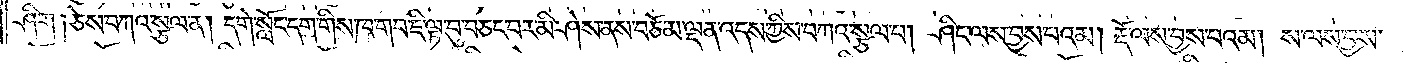ཤིག །ཅེས་བཀའ་སྩལ་ན། དགེ་སློང་དག་གིས་ཁ་གབ་ཇི་ལྟ་བུ་བཅང་བར་མི་ཤེས་ནས་བཅོམ་ལྡན་འདས་ཀྱིས་བཀའ་སྩལ་པ། ཤིང་ལས་བྱས་པའམ། རྡོ་ལས་བྱས་པའམ། ས་ལས་བྱས་
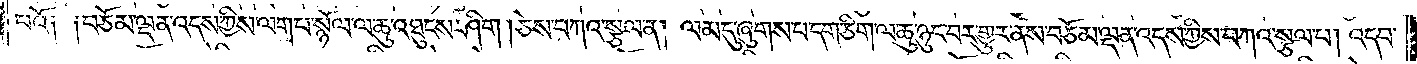པའོ༑ ༑བཅོམ་ལྡན་འདས་ཀྱིས་ལག་པ་སྙོལ་ལ་ཆུ་འཐུངས་ཤིག །ཅེས་བཀའ་སྩལ་ན། ལམ་དུ་ཞུགས་པ་དག་ཅིག་ལ་ཆུ་ཉུང་བར་གྱུར་ནས་བཅོམ་ལྡན་འདས་ཀྱིས་བཀའ་སྩལ་པ། འདབ་
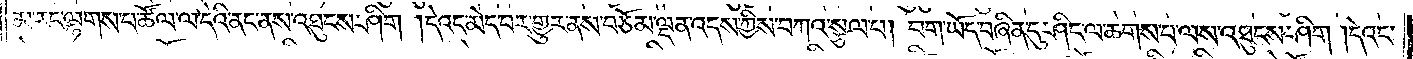མ་རང་ལྷགས་པ་ཚོལ་ལ་དེའི་ནང་ནས་འཐུངས་ཤིག །དེའང་མེད་པར་གྱུར་ནས་བཅོམ་ལྡན་འདས་ཀྱིས་བཀའ་སྩལ་པ། བག་ཡོད་བཞིན་དུ་ཤིང་ལ་ཆགས་པ་ལས་འཐུངས་ཤིག །དེའང་
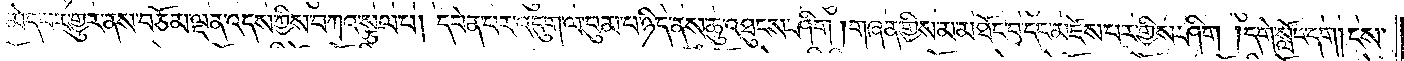མེད་པར་གྱུར་ནས་བཅོམ་ལྡན་འདས་ཀྱིས་བཀའ་སྩལ་པ། དབེན་པར་འདུག་ལ་བུམ་པ་ཉིད་ནས་ཆུ་འཐུངས་ཤིག །གཞན་གྱིས་མ་མཐོང་བ་དང་མཛེས་པར་གྱིས་ཤིག །དགེ་སློང་དག །ངས་
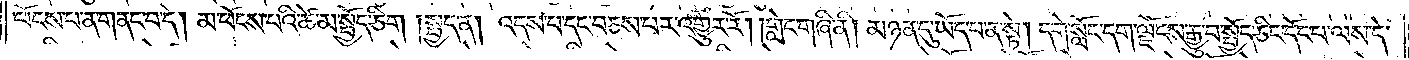ཕོངས་པ་ན་གནང་བ་དེ། མ་ཕོངས་པའི་ཚེ་མ་སྤྱོད་ཅིག །སྤྱད་ན། འདས་པ་དང་བཅས་པར་འགྱུར་རོ། །གླེང་གཞི་ནི། མཉན་དུ་ཡོད་པ་ན་སྟེ། དགེ་སློང་དག་ལྗོངས་རྒྱུ་བ་སྤྱོད་ཅིང་དོང་པ་ལས་དེ་
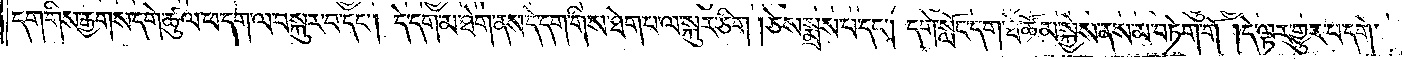དག་གིས་རྒྱགས་དགེ་ཚུལ་ཕ་དག་ལ་བསྐུར་བ་དང༌། དེ་དག་མ་ཐེག་ནས་དེ་དག་གིས་ཐེག་པ་ལ་སྐུར་ཅིག །ཅེས་སྨྲས་པ་དང༌། དགེ་སློང་དག་ཐེ་ཚོམ་སྐྱེས་ནས་མ་བཏེག་གོ །དེ་ལྟར་གྱུར་པ་དགེ་
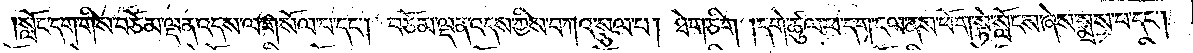སློང་དག་གིས་བཅོམ་ལྡན་འདས་ལ་གསོལ་པ་དང༌། བཅོམ་ལྡན་འདས་ཀྱིས་བཀའ་སྩལ་པ། ཐེ་གཅིག །དགེ་ཚུལ་ཕ་དག་ངལ་ནས་ཕོག་སྟེ་སློངས་ཞེས་སྨྲས་པ་དང༌།
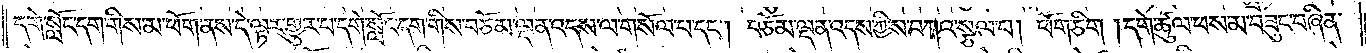དགེ་སློང་དག་གིས་མ་ཕོག་ནས་དེ་ལྟར་གྱུར་པ་དགེ་སློང་དག་གིས་བཅོམ་ལྡན་འདས་ལ་གསོལ་པ་དང༌། བཅོམ་ལྡན་འདས་ཀྱིས་བཀའ་སྩལ་པ། ཕོ་གཅིག །དགེ་ཚུལ་ཕས་མ་བཟུང་བཞིན་
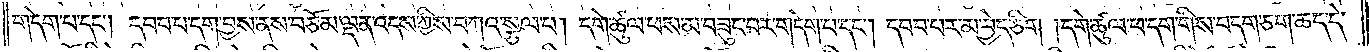གདེག་པ་དང༌། དབབ་པ་དག་བྱས་ནས་བཅོམ་ལྡན་འདས་ཀྱིས་བཀའ་སྩལ་པ། དགེ་ཚུལ་ཕས་མ་བཟུང་བར་གདེག་པ་དང༌། དབབ་པར་མ་བྱེད་ཅིག །དགེ་ཚུལ་ཕ་དག་གིས་བདག་ཅག་ཆད་དེ་
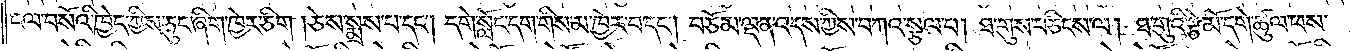ངལ་བསོའི་ཁྱེད་ཀྱིས་ཅུང་ཞིག་ཁྱེར་ཅིག །ཅེས་སྨྲས་པ་དང༌། དགེ་སློང་དག་གིས་མ་ཁྱེར་བ་དང༌། བཅོམ་ལྡན་འདས་ཀྱིས་བཀའ་སྩལ་པ། ཐ་གུས་བཅིངས་ལ། ཐ་གུའི་རྩེ་མོ་དགེ་ཚུལ་ཕས་
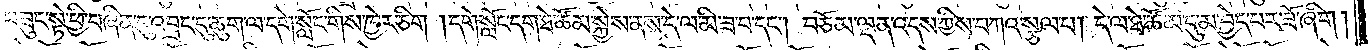བཟུང་སྟེ་ཕྱི་བཞིན་དུ་འབྲང་དུ་ཆུག་ལ་དགེ་སློང་གིས་ཁྱེར་ཅིག །དགེ་སློང་དག་ཐེ་ཚོམ་སྐྱེས་ནས་དེ་ལ་མི་ཟ་བ་དང༌། བཅོམ་ལྡན་འདས་ཀྱིས་བཀའ་སྩལ་པ། དེ་ལ་ཐེ་ཚོམ་དུ་མ་བྱེད་པར་ཟོ་ཞིག།
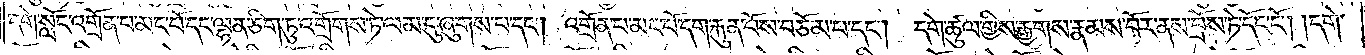དགེ་སློང་འགྲོན་པ་མང་པོ་དང་ལྷན་ཅིག་ཏུ་འགྲོགས་ཏེ་ལམ་དུ་ཞུགས་པ་དང༌། འགྲོན་པ་མང་པོ་དག་རྐུན་པོས་བཅོམ་པ་དང༌། དགེ་ཚུལ་གྱིས་རྒྱགས་རྣམས་བོར་ནས་བྲོས་ཏེ་དོང་ངོ༌། །དགེ་
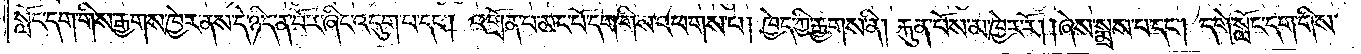སློང་དག་གིས་རྒྱགས་ཁྱེར་ནས་དེ་ཉིད་ན་བོར་ཞིང་འདུག་པ་དང༌། འགྲོན་པ་མང་པོ་དག་གིས་འཕགས་པ། ཁྱེད་ཀྱི་རྒྱགས་ནི། རྐུན་པོས་མ་ཁྱེར་རོ། །ཞེས་སྨྲས་པ་དང༌། དགེ་སློང་དག་གིས་
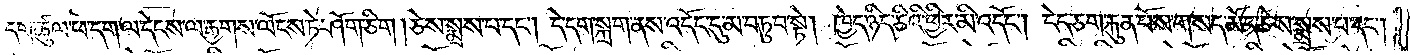དགེ་ཚུལ་ཕ་དག་ལ་དེངས་ལ་རྒྱགས་ལོངས་ཏེ་ཤོག་ཅིག །ཅེས་སྨྲས་པ་དང༌། དེ་དག་སྐྲག་ནས་འདོང་དུ་མ་བཏུབ་སྟེ། ཁྱེད་ཉིད་ཅིའི་ཕྱིར་མི་འདོང༌། ངེད་ཅག་རྐུན་པོས་གསད་མོད་ཅེས་སྨྲས་པ་དང༌།
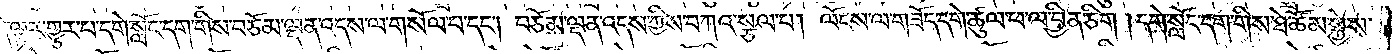དེ་ལྟར་གྱུར་པ་དགེ་སློང་དག་གིས་བཅོམ་ལྡན་འདས་ལ་གསོལ་པ་དང༌། བཅོམ་ལྡན་འདས་ཀྱིས་བཀའ་སྩལ་པ། ལོངས་ལ་གཟོད་དགེ་ཚུལ་ཕ་ལ་བྱིན་ཅིག །དགེ་སློང་དག་གིས་ཐེ་ཚོམ་སྐྱེས་
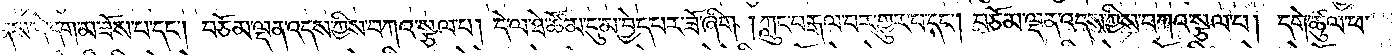ནས་དེ་དག་མ་ཟོས་པ་དང༌། བཅོམ་ལྡན་འདས་ཀྱིས་བཀའ་སྩལ་པ། དེ་ལ་ཐེ་ཚོམ་དུ་མ་བྱེད་པར་ཟོ་ཞིག །ཀླུང་བརྒལ་བར་གྱུར་པ་དང༌། བཅོམ་ལྡན་འདས་ཀྱིས་བཀའ་སྩལ་པ། དགེ་ཚུལ་ཕ་
